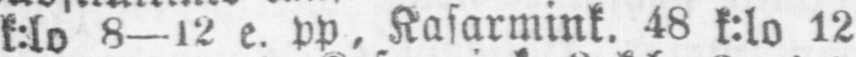k:lo 8—12 e. pp. Kasarmink. 48 k:lo 12
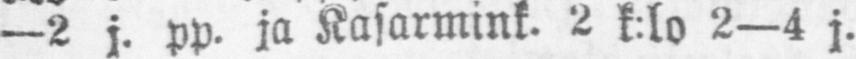—2 j. pp. ja Kasarmink. 2 k:lo 2—4 j.
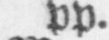pp.
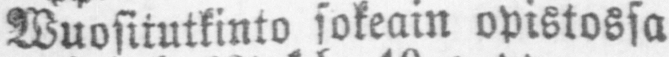Wuositutkinto sokeain opistossa (Konstan-
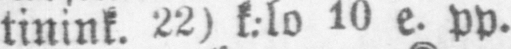tinink. 22) k.lo 10 e. pp.
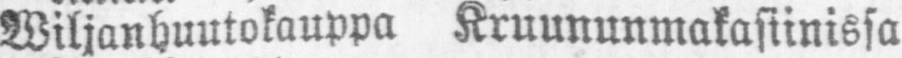Wiljanhuutokauppa Kruununmakasiinissa
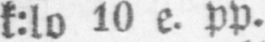k:lo 10 e. pp.
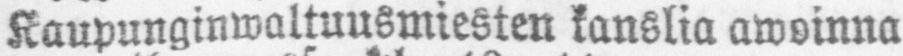Kaupunginwaltuusmiesten kanslia awoinna
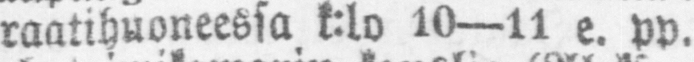raatihuoneessa k:lo 10—11 e. pp.
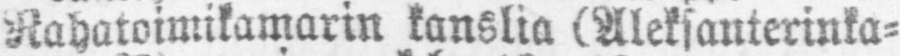Rahatoimikamarin kanslia (Aleksanterinka-
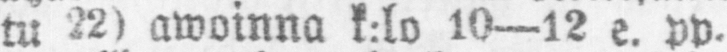tu 22) awoinna k:lo 10— 12 e. pp.
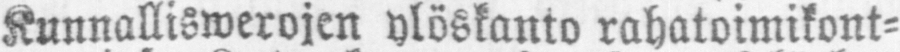Kunnalliswerojen ylöskanto rahatoimikont-
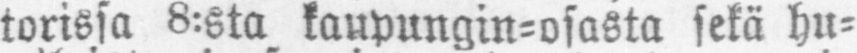torissa 8:sta kaupungin-osasta sekä hu-
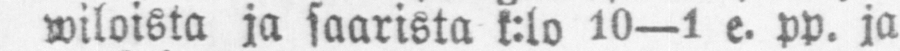wiloista ja saarista k:lo 10—1 e. pp. ja
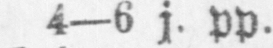4—6 j. pp.
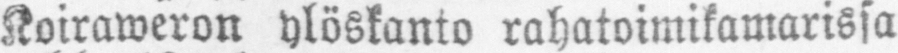Koiraweron ylöskanto rahatoimikamarissa
